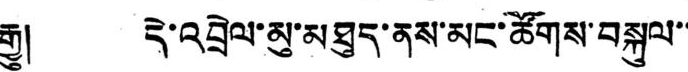རྒྱུ། དེ་འབྲེལ་མུ་མཐུད་ནས་མང་ཚོགས་བསྐུལ་་
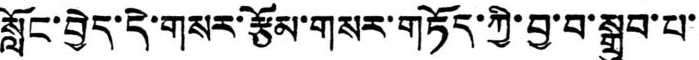སློང་བྱེད་དེ་གསར་རྩོམ་གསར་གཏོད་ཀྱི་བྱ་བ་སྒྲུབ་པ་
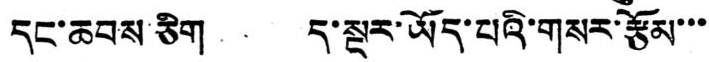དང་ཆབས་ཅིག ད་སྔར་ཡོད་པའི་གསར་རྩོམ་་་
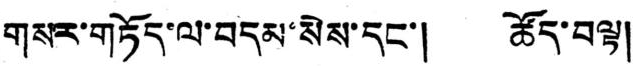གསར་གཏོད་ལ་བདམ་སེས་དང་། ཚོད་བལྟ།
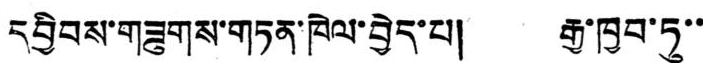དབྱིབས་གཟུགས་གཏན་ཁེལ་བྱེད་པ། རྒྱ་ཁྱབ་ཏུ་་
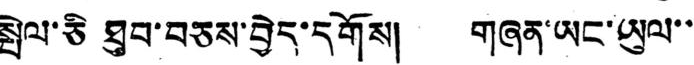སྤེལ་ཅི ཐུབ་བཅས་བྱེད་དགོས། གཞན་ཡང་ཡུལ་་
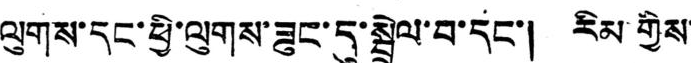ལུགས་དང་ཕྱི་ལུགས་ཟུང་དུ་སྦྲེལ་བ་དང་། རིམ གྱིས་
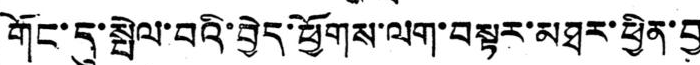གོང་དུ་སྤེལ་བའི་བྱེད་ཕྱོགས་ལག་བསྟར་མཐར་ཕྱིན་བྱ
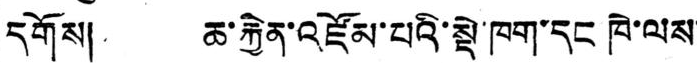དགོས། ཆ་རྐྱེན་འཛོམ་པའི་སྡེ་ཁག་དང ཁེ་ལས་
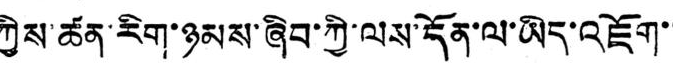ཀྱིས་ཚན་རིག་ཉམས་ཞིབ་ཀྱི་ལས་དོན་ལ་ཡིད་འཇོག་་་
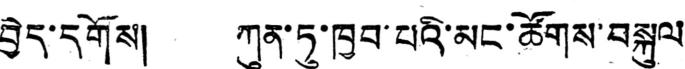བྱེད་དགོས། ཀུན་ཏུ་ཁྱབ་པའི་མང་ཚོགས་བསྐུལ་
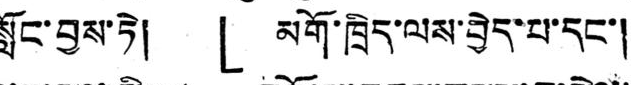སློང་བྱས་ཏེ། 「མགོ་ཁྲིད་ལས་བྱེད་པ་དང་།
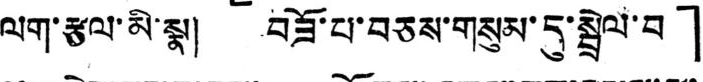ལག་རྩལ་མི་སྣ། བཟོ་པ་བཅས་གསུམ་དུ་སྦྲེལ་བ 」
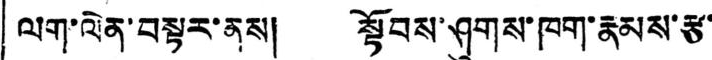ལག་ལེན་བསྟར་ནས། སྟོབས་ཤུགས་ཁག་རྣམས་རྩ་
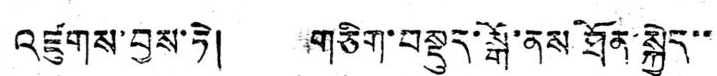འཛུགས་བྱས་ཏེ། གཅིག་བསྡུད་སྒོ་ནས ཐོན་སྐྱེད་་
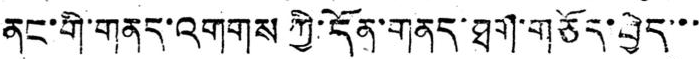ནང་གི་གནད་འགགས ཀྱི་དོན་གནད་ཐག་གཅོད་བྱེད་་་
